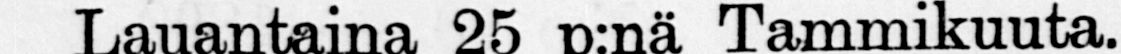Lauantaina 25 p:nä Tammikuuta.
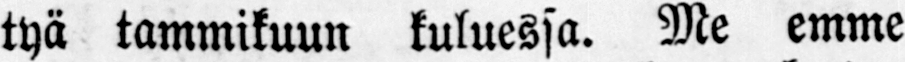tyä tammikuun kuluessa. Me emme
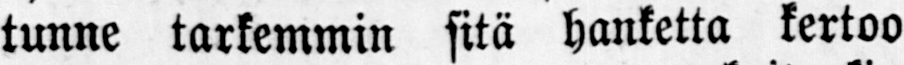tunne tarkemmin sitä hanketta kertoo
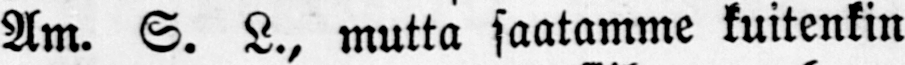Am. S. L., mutta saatamme kuitenkin
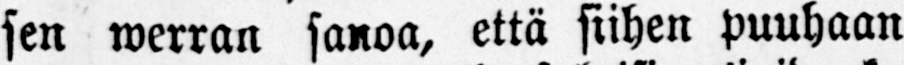sen werran sanoa, että siihen puuhaan
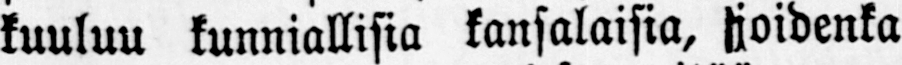kuuluu kunniallisia kansalaisia, joidenka
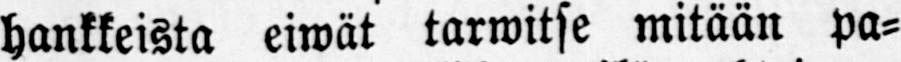hankkeista eiwät tarwitse mitään pa-
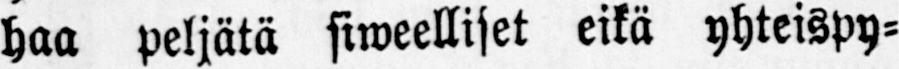haa peljätä siweelliset eikä yhteispy-
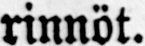rinnöt.
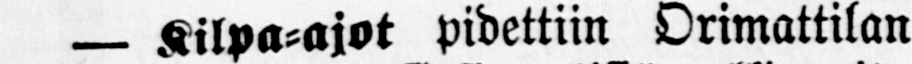— Kilpa-ajot pidettiin Orimattilan
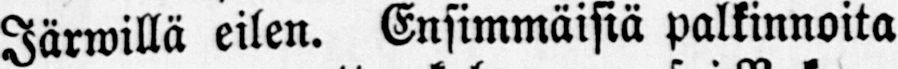Järwillä eilen. Ensimmäisiä palkinnoita
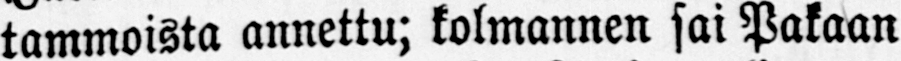tammoista annettu; kolmannen sai Pakaan
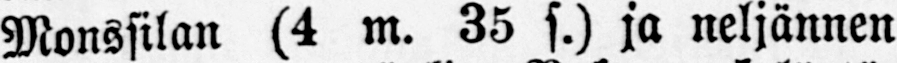Monssilan (4 m. 35 s.) ja neljännen
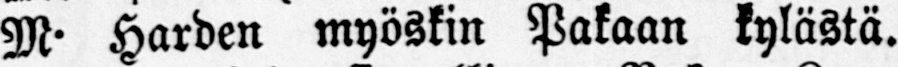M. Harden myöskin Pakaan kylästä.
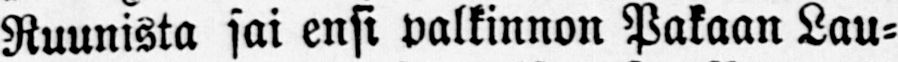Ruunista sai ensi palkinnon Pakaan Lau-
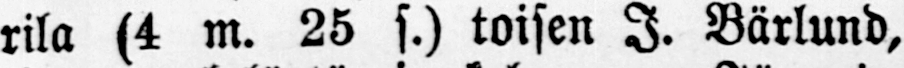rila (4 m. 25 s.) toisen I. Bärlund,
